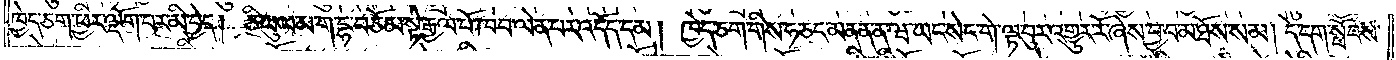ཁྱེད་ཅག་ཕྱིར་ལྡོག་པར་མི་བྱེད། ཅི་ཡུལ་མ་ག་དྷ་བཅོམ་སྟེ་རྒྱལ་པོ་ཁབ་ལེན་པར་འདོད་དམ། ཁྱེད་ཅག་གིས་ཧ་ཅང་མནན་ན་ཝ་ཡང་སེང་གེ་ལྟ་བུར་འགྱུར་རོ་ཞེས་བྱ་བ་མ་ཐོས་སམ། དེ་དག་སྤོབས་
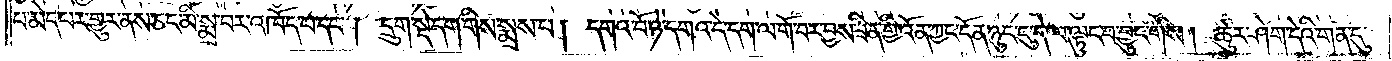པ་མེད་པར་གྱུར་ནས་ཅང་མི་སྨྲ་བར་འཁོད་པ་དང༌། དྲུག་སྟེ་དག་གིས་སྨྲས་པ། དགའ་བོ་ཉེ་དགའ་དེ་དག་ལ་གོ་བར་བྱས་ཟིན་གྱི་འོན་ཀྱང་དོན་ཉུང་ངུ་དེ་ལ་ལྟུང་བ་བྱུང་གིས། ཚུར་ཤོག་དེའི་གན་དུ་
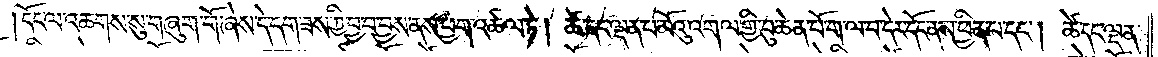།དོང་ལ་འཆགས་སུ་གཞུག་གོ་ཞེས་དེ་དག་ཟས་ཀྱི་བྱ་བ་བྱས་ནས་ཕྱག་འཚལ་ཏེ། ཚེ་དང་ལྡན་པ་མོའུ་འགལ་གྱི་བུ་ཆེན་པོ་ག་ལ་བ་དེར་དོང་ནས་ཕྱིན་པ་དང༌། ཚེ་དང་ལྡན་
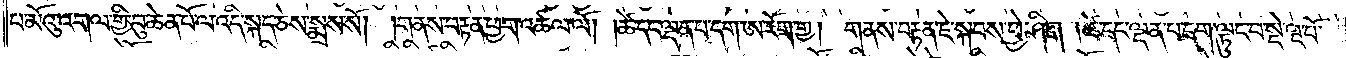པ་མོའུ་འགལ་གྱི་བུ་ཆེན་པོ་ལ་འདི་སྐད་ཅེས་སྨྲས་སོ། །གནས་བརྟན་ཕྱག་འཚལ་ལོ། །ཚེ་དང་ལྡན་པ་དག་ཨ་རོག་གྱ། གནས་བརྟན་ཇེ་སྐབས་ཕྱེ་ཤིག །ཚེ་དང་ལྡན་པ་དག་ལྟུང་བ་སྡེ་ལྔ་པོ་
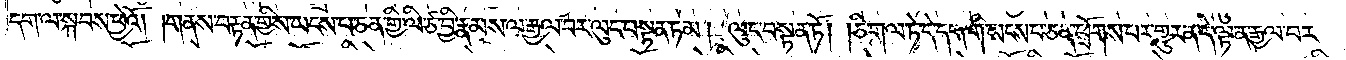དག་ལ་སྐབས་ཕྱེའོ། །གནས་བརྟན་གྱིས་ཡངས་པ་ཅན་གྱི་ལི་ཙ་བྱི་རྣམས་ལ་རྒྱལ་བར་ལུང་བསྟན་ཏམ། ལུང་བསྟན་ཏོ། །ཅི་གལ་ཏེ་དེ་དག་གི་ཡངས་པ་ཅན་ཕྲོགས་པར་གྱུར་ན་དེ་ལྟ་ན་རྒྱལ་བར་
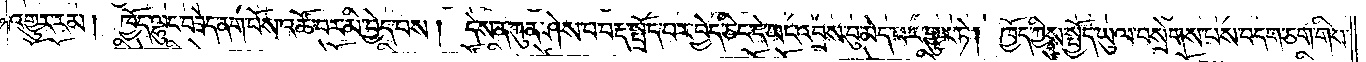འགྱུར་རམ། ཁྱོད་ལྷུང་བཟེད་ནག་པོས་འཚོ་བར་མི་བྱེད་པས། དེས་ན་ཀུན་ཤེས་པ་བརྡ་སྤྲོད་པར་བྱེད་ཅིང་དེ་ཡང་འབྲས་བུ་མེད་པར་གྱུར་ཏེ། ཁྱོད་ཀྱིས་སྤྱོད་ཡུལ་བསྲེགས་པས་བདག་ཅག་གིས་
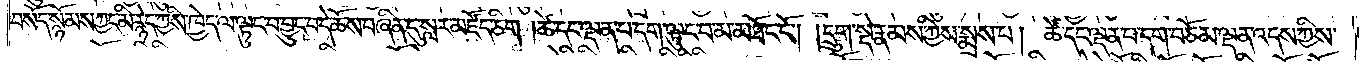བསོད་སྙོམས་ཀྱང་མི་རྙེད་ཀྱིས་ཁྱེད་ལ་ལྟུང་བ་བྱུང་བ་དེ་ཆོས་བཞིན་དུ་སླར་མཛོད་ཅིག །ཚེ་དང་ལྡན་པ་དག་ལྟུང་བ་མ་མཐོང་ངོ༌། །དྲུག་སྡེ་རྣམས་ཀྱིས་སྨྲས་པ། ཚེ་དང་ལྡན་པ་དག་བཅོམ་ལྡན་འདས་ཀྱིས་
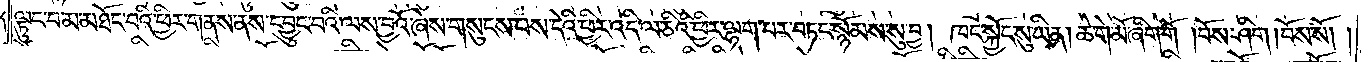ལྟུང་བ་མ་མཐོང་བའི་ཕྱིར་གནས་ནས་དབྱུང་བའི་ལས་བྱའོ་ཞེས་གསུངས་པས་དེའི་ཕྱིར་འདི་ལ་ཅིའི་ཕྱིར་ལྷག་པར་བཏང་སྙོམས་སུ་བྱ། ཁང་སྐྱོང་སུ་ཡིན། ཆེ་གེ་མོ་ཞིག་གོ །བོས་ཤིག །བོས་སོ། །
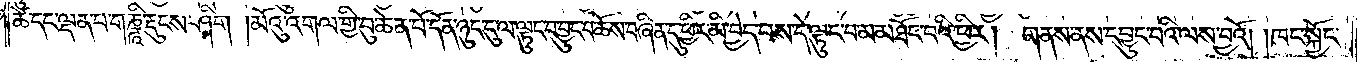ཚེ་དང་ལྡན་པ་གཎྜཱི་རྡུངས་ཤིག །མོའུ་འགལ་གྱི་བུ་ཆེན་པོ་དོན་ཉུང་ངུ་ལ་ལྟུང་བ་བྱུང་བ་ཆོས་བཞིན་དུ་ཕྱིར་མི་བྱེད་པས་དེ་ལྟུང་བ་མ་མཐོང་བའི་ཕྱིར། གནས་ནས་དབྱུང་བའི་ལས་བྱའོ། །ཁང་སྐྱོང་
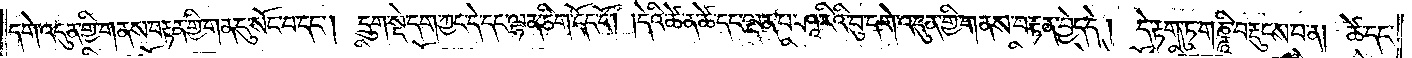དགེ་འདུན་གྱི་གནས་བརྟན་གྱི་གན་དུ་སོང་བ་དང༌། དྲུག་སྡེ་དག་ཀྱང་དེ་དང་ལྷན་ཅིག་དོང་ངོ༌། །དེའི་ཚེ་ན་ཚེ་དང་ལྡན་པ་ཤཱ་རིའི་བུ་དགེ་འདུན་གྱི་གནས་བརྟན་བྱེད་དེ། དེ་རྟག་ཏུ་གཎྜཱི་བརྡུངས་པ་ན། ཚེ་དང་
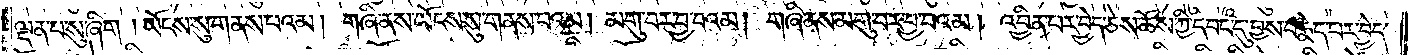ལྡན་པ་སུ་ཞིག །ཡོངས་སུ་གནས་པའམ། གཞི་ནས་ཡོངས་སུ་གནས་པའམ། མགུ་བར་བྱ་བའམ། གཞི་ནས་མགུ་བར་བྱ་བའམ། འབྱིན་པར་བྱེད་ཅེས་ཆོས་ཀྱི་དབང་དུ་བྱས་པ་རྨེད་པར་བྱེད་
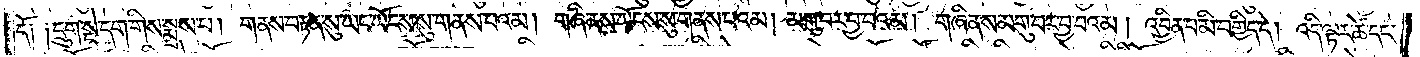དོ༑ ༑དྲུག་སྡེ་དག་གིས་སྨྲས་པ། གནས་བརྟན་སུ་ཡང་ཡོངས་སུ་གནས་པའམ། གཞི་ནས་ཡོངས་སུ་གནས་པའམ། མགུ་བར་བྱ་བའམ། གཞི་ནས་མགུ་བར་བྱ་བའམ། འབྱིན་པ་མི་བགྱིད་དེ། འདི་ལྟར་ཚེ་དང་
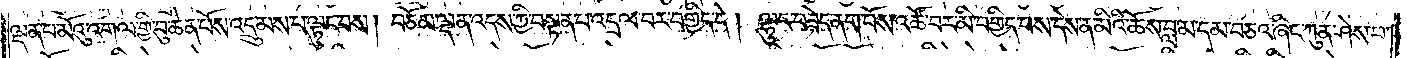ལྡན་པ་མོའུ་འགལ་གྱི་བུ་ཆེན་པོས་འདྲུམས་པ་ལྟུང་བས། བཅོམ་ལྡན་འདས་ཀྱི་བསྟན་པ་འདྲལ་བར་བགྱིད་དེ། ལྷུང་བཟེད་ནག་པོས་འཚོ་བར་མི་བགྱིད་པས་དེས་ན་མིའི་ཆོས་བླ་མ་དམ་བཅའ་ཞིང་ཀུན་ཤེས་པ་
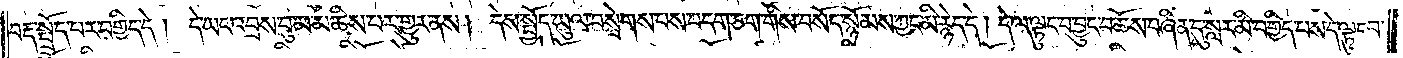བརྡ་སྤྲོད་པར་བགྱིད་དེ། དེ་ཡང་འབྲས་བུ་མ་མཆིས་པར་གྱུར་ནས། དེས་སྤྱོད་ཡུལ་བསྲེགས་པས་བདག་ཅག་གིས་བསོད་སྙོམས་ཀྱང་མི་རྙེད་དེ། དེ་ལ་ལྟུང་བ་བྱུང་བ་ཆོས་བཞིན་དུ་སླར་མི་བགྱིད་པས་དེ་ལྟུང་བ་
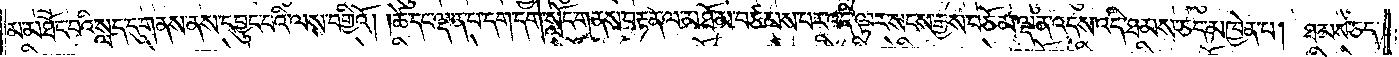མ་མཐོང་བའི་སླད་དུ་གནས་ནས་དབྱུང་བའི་ལས་བགྱིའོ། །ཚེ་དང་ལྡན་པ་དག་དགེ་སློང་གནས་བརྟན་ལ་མཐོ་མ་བཙམས་པར་འདི་ལྟར་སངས་རྒྱས་བཅོམ་ལྡན་འདས་འདི་ཐམས་ཅད་མཁྱེན་པ། ཐམས་ཅད་
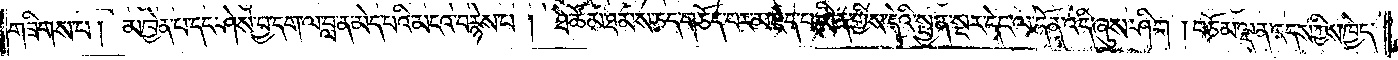གཟིགས་པ། མཁྱེན་པ་དང་ཤེས་བྱ་དག་ལ་བླ་ན་མེད་པའི་མངའ་བརྙེས་པ། ཐེ་ཚོམ་ཐམས་ཅད་གཅོད་པར་མཛད་པ་ཡིན་གྱིས་དེའི་སྤྱན་སྔར་དེང་ལ་དོན་འདི་ཞུས་ཤིག །བཅོམ་ལྡན་འདས་ཀྱིས་ཁྱེད་
